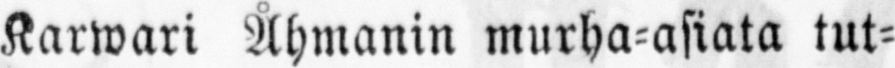Karwari Åhmanin murha-asiata tut-
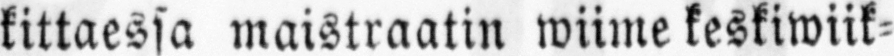kittaessa maistraatin wiime keskiwiik-
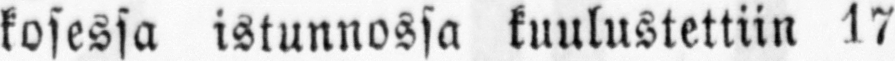kosessa istunnossa kuulustettiin 17
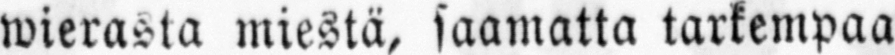wierasta miestä, saamatta tarkempaa
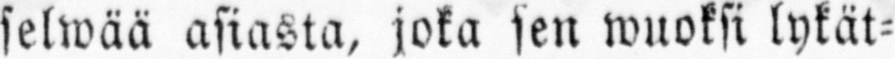selwää asiasta, joka sen wuoksi lykät-
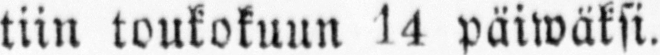tiin toukokuun päiwäksi.
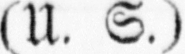(U. S.)
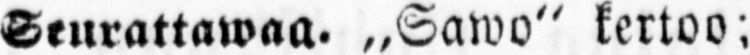— Seurattawaa. „Sawo" kertoo;
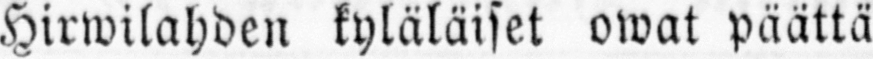Hirwilahden kyläläiset owat päättä-
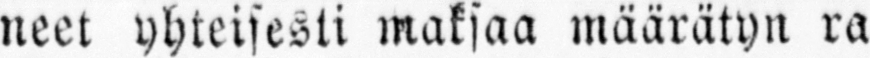neet yhteisesti maksaa määrätyn ra-
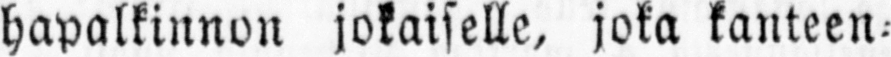hapalkinnon jokaiselle, joka kanteen-
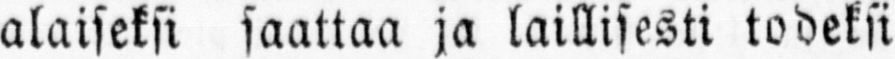alaiseksi saattaa ja laillisesti todeksi
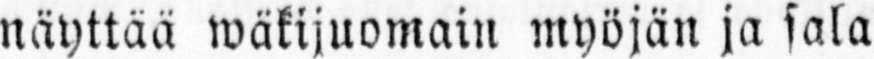näyttää wäkijuomain myöjän ja sala-
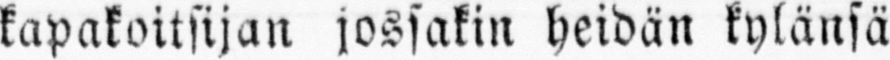kapakoitsijan jossakin heidän kylänsä
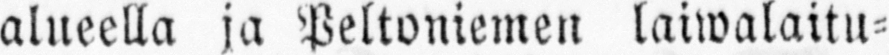alueella ja Peltoniemen laiwalaitu-
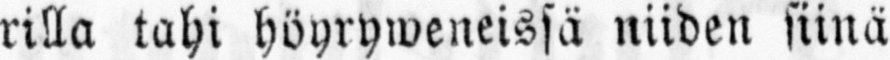rilla tahi höyryweneissä niiden siinä
